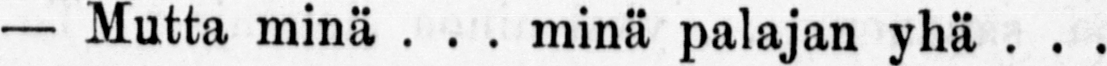— Mutta minä . . . minä palajan yh ä . . .
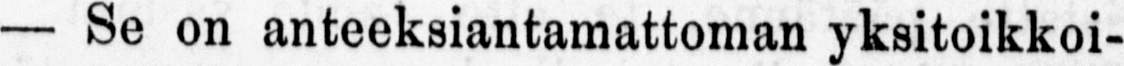— Se on anteeksiantamattoman yksitoikkoi-
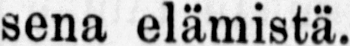sena elämistä.
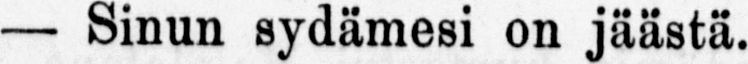— Sinun sydämesi on jäästä.
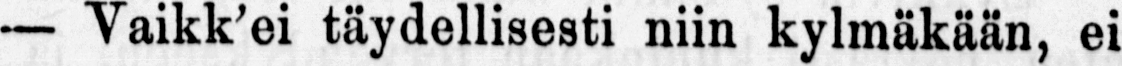— Vaikk'ei täydellisesti niin kylmäkään, ei
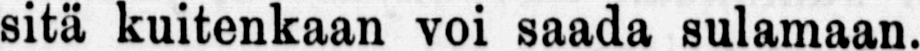sitä kuitenkaan voi saada sulamaan.
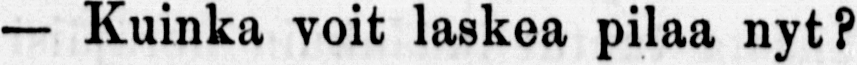— Kuinka voit laskea pilaa nyt?
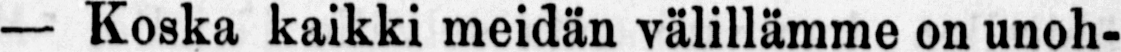— Koska kaikki meidän välillämme on unoh-
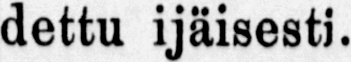dettu ijäisesti.
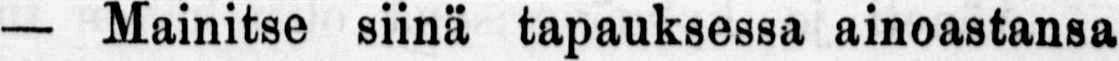— Mainitse siinä tapauksessa ainoanansa
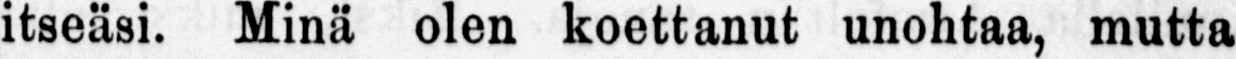itseäsi, olen koettanut unohtaa, mutta
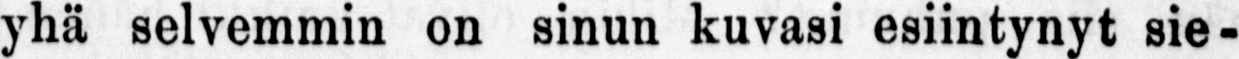yhä selvemmin on sinun kuvasi esiintynyt sie-
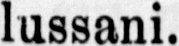lussani.
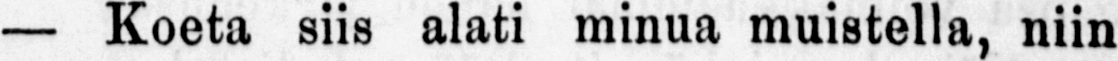— Koeta siis alati minua muistella, niin
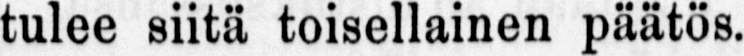tulee siitä toisellainen päätös.
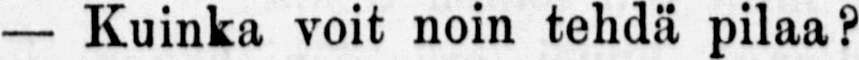— Kuinka voit noin tehdä pilaa?
